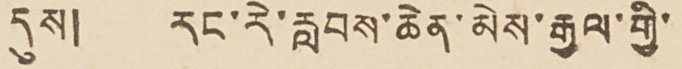དུས། རང་རེ་རླབས་ཆེན་མེས་རྒྱལ་གྱི་
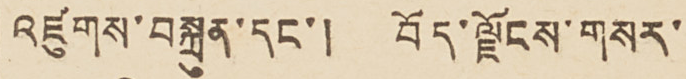འཛུགས་བསྐྲུན་དང་། བོད་ལྗོངས་གསར་
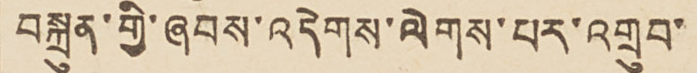བསྐྲུན་གྱི་ཞབས་འདེགས་ལེགས་པར་འགྲུབ་
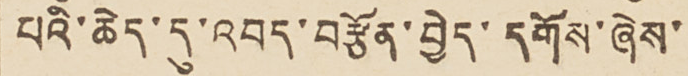པའི་ཆེད་དུ་འབད་བརྩོན་བྱེད་དགོས་ཞེས་
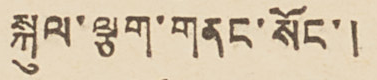སྐུལ་ལྕག་གནང་སོང་།
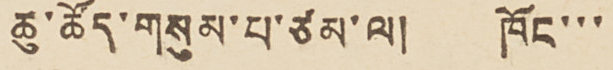ཆུ་ཚོད་གསུམ་པ་ཙམ་ལ། ཁོང་་་
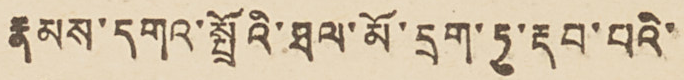རྣམས་དགའ་སྤྲོའི་ཐལ་མོ་དྲག་ཏུ་རྡབ་པའི་
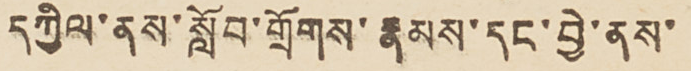དཀྱིལ་ནས་སློབ་གྲོགས་རྣམས་དང་བྱེ་ནས་
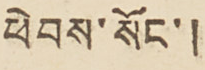ཕེབས་སོང་།
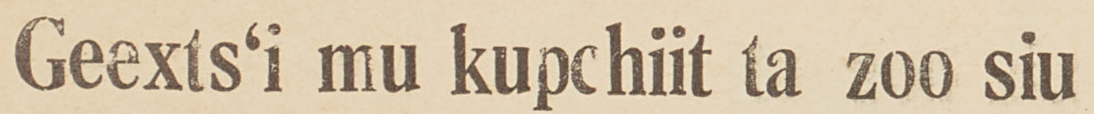Geexts'i mu kupchiit ta zoo siu
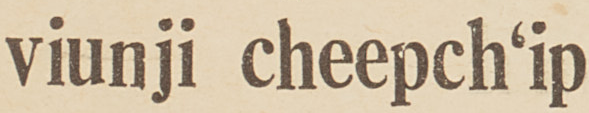Viunji cheepch'ip
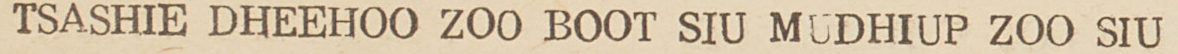TSASHIE DHEEHOO ZOO BOOT SIU MUDHIUP ZOO SIU
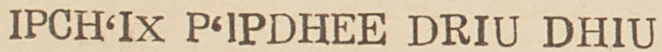IPCH'IX P'IPDHEE DRIU DHIU
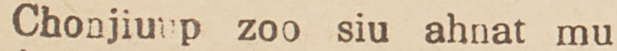Chonjiuup zoo siu ahnat mu
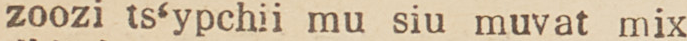zoozi ts'ypchii mu siu muvat mix
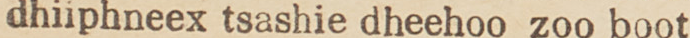dhiiphneex tsashie dheehoo zoo boot
